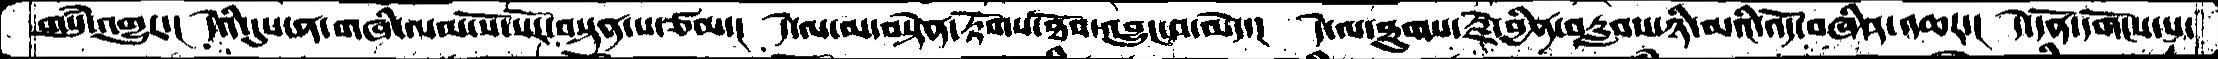གསུཾ་འགྱུར་།  དེའི་དུས་ན་གཞི་ལམ་སོ་སོར་བསྟན་པ་་ཙམ་།  དེ་ལ་མ་བསྟེན་རྟོགས་ཐོབ་འབྱུང་བ་མེད་།  དེ་ལ་ཐུགས་རྗེ་བྱིན་བརླབས་ཉི་མའི་འོད་བཞིན་འཆར་།  དེ་དོན་དགོངས་པ་
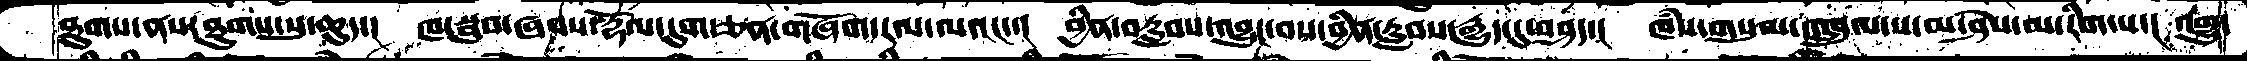ཐུགས་ནས་ཐུགས་སུ་ཆུད་།  ཁ་སྦུབ་ཞབས་རྡོལ་དུག་ཅན་གཞོག་རལ་ལའང་་།  བྱིན་བརླབས་འབྱུང་བས་བྱིན་རླབས་རྒྱུད་དུ་བཤད་།  ཁཾས་གསུམ་འཁྲུལ་པ་མ་ཤེས་མ་རིག་པ་།  འགྱུ་
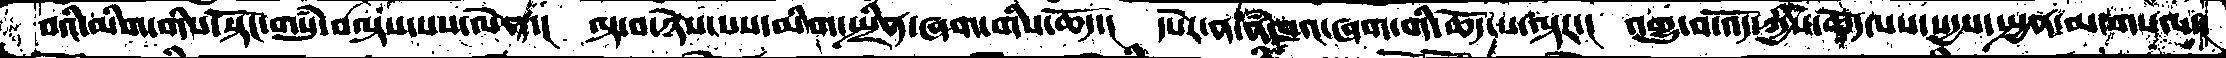བའི་མིག་གིས་སྟོང་གསུཾ་བལྟས་པས་ལེན་།  ལྟ་བ་ཉེས་པས་མིག་སྤྲིན་ཞག་གིས་ཆོད་།  དཔེར་ན་ནཾཁའ་ཞག་གི་ཆོད་པ་ལྟར་།  འགྱུ་བ་འོད་ཀྱིས་ཆོད་ལས་སདྱས་སྤྱན་མ་གསལ་།
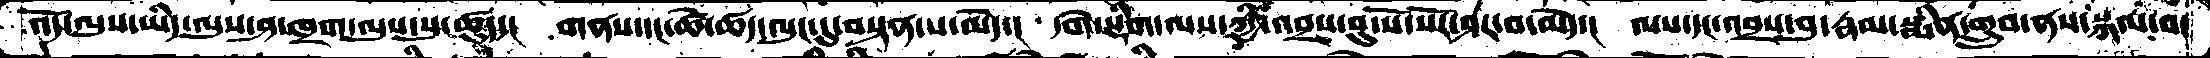འོད་ལུས་ཡིད་ལུས་ཤ་ཁྲག་ལུས་སུ་ཚུད་།   གནས་དང་ཚེ་ཚད་ལུང་དུ་བསྟན་པ་མེད་།   དགེ་སྡིག་ལས་ཀྱི་འབྲས་བུ་སོ་སོར་ཤར་བ་མེད་།  ལས་དང་འབྲས་བུ་རྣམ་སྨིན་གྲུབ་ནས་སྐལ་བ་
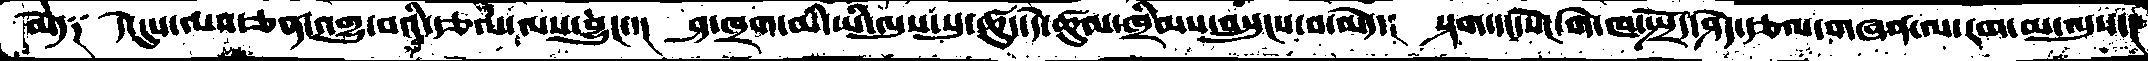མེད༑ དེ་དུས་ལབ་ཅན་འགྱུ་བའི་རྩལ་ལས་བྱུང་་།  ཤ་ཁྲག་མི་ཡི་ལུས་སུ་ཚུད་དེ་ཚུལ་ཁྲིམས་བསྲུངས་བ་མེད་།  སྟག་དང་སེང་གེ་ཁ་སྤྲོད་ཤེད་རྩལ་གཞན་ལ་རག་མ་ལུས་།
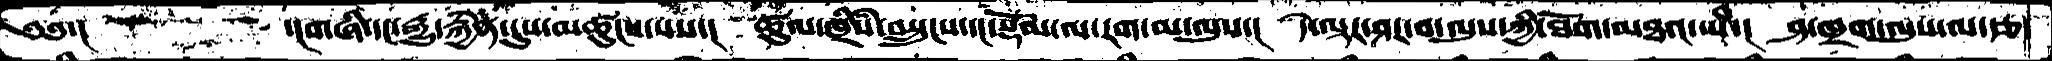༄༅་།       ་།གཞི་དང་རྒྱུ་རྐྱེན་དུས་མཚུངས་པས་།   ཚུལ་ཁྲིཾས་བསྲུངས་དང་སྡོམ་ལ་རག་མ་ལུས་།   དེ་ལྟར་ཤར་བ་ལུས་ཀྱི་ཐོག་མཐའ་ཡི་།   ཤ་ཁྲག་ལུས་ལ་རྩ་
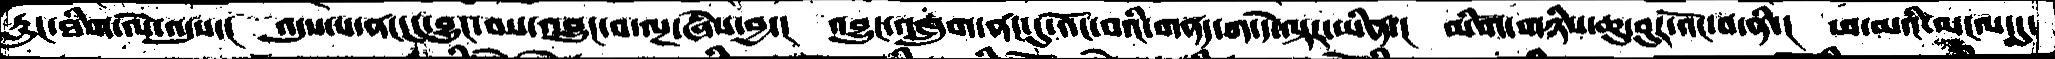རླུང་ཐིག་ལེ་འདུས་།   འདུས་པ་ནང་དུ་བྱུང་བས་འབྱུང་བ་ལྔ་ཞེས་བྱ་།   འབྱུང་འཁྲུག་ནང་དུ་འོང་བའི་གནད་ཀ་དེ་ལྟར་ཡིན་།  མིག་གཉིས་ཆུ་བུར་འོང་བ་ནི་།   ཕ་མའི་མངལ་དུ་
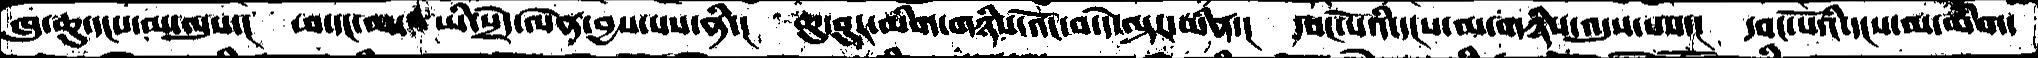ཁུ་ཆུ་དངས་མ་ལུས་།   ཕ་དང་མ་ཡི་སྲེད་ལེན་བྱས་པས་ནི་།  ཆུ་བུར་མིག་གཉིས་འོང་བ་དེ་ལྟར་མིན་།  དབང་པོའི་དངས་མ་གཉིས་འདུས་པས་།  དབང་པོའི་དངས་མ་མིག་
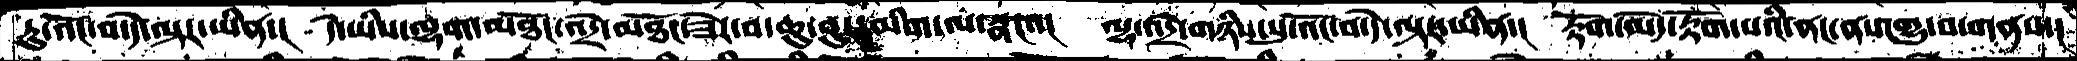ཏུ་འོང་བ་དེ་ལྟར་ཡིན་།  དེ་ཡིས་ལྷག་མཐོང་འདྲེ་མཐོང་ཟེར་བ་ཆུ་བུར་མིག་ལ་སྣང་་།  ལྷ་འདྲེ་གཉིས་སུ་འོང་བ་དེ་ལྟར་ཡིན་།  རྟོག་མེད་རྟོག་པའི་ནང་ནས་གྱུ་བ་གནས་།
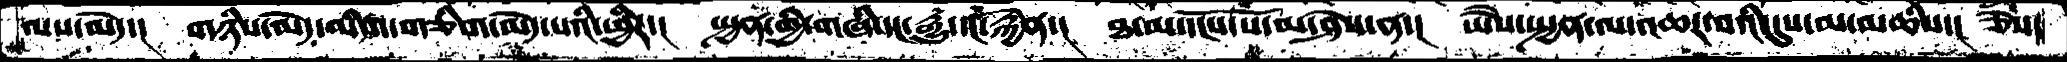ལས་མེད་།   གཉིས་མེད་མིག་གཅིག་མེད་པའི་ཕྱིར་།  སྤྱན་གྱི་གཞི་དང་རྒྱུ་དང་རྐྱེན་།  ཐ་མ་དངོས་པོ་མ་ཤེས་ན་།  ཡཻས་སྤྱན་ལ་འཆར་བའི་དུས་མ་མཆིས་།  ཅེས་
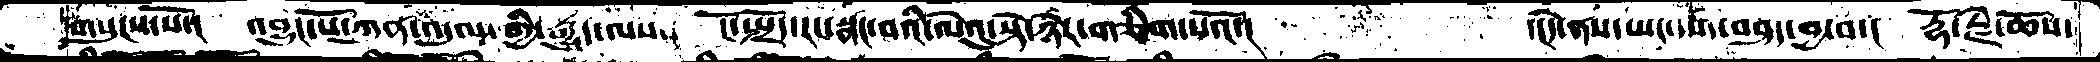གསུངས་སོ་།   འབྱུང་པོ་ཀུན་འདུལ་གྱི་རྒྱུད་ལས་།   ངོ་སྤྲོད་རང་སྣང་བའི་ལེའུ་སྟེ་ཉེར་གཅིག་པའོ་།      ་།དེ་ནས་ཡང་དག་བཤད་བྱ་བ་།  རྡོ་རྗེ་ཆོས་
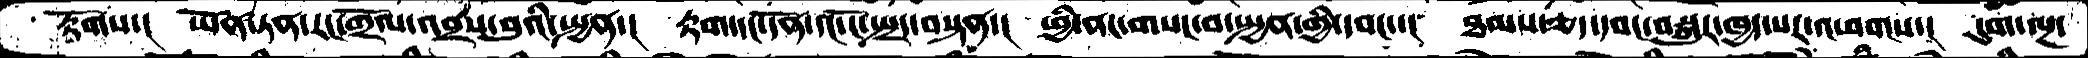རྟོགས་།    ཡོན་ཏན་རང་གྲོལ་འབྲས་བུའི་སྤྱན་།  རྟག་དང་དོན་དང་ངོ་སྤྲད་བསྟན་།   ཕྱི་ནང་གསང་བ་སྤྱན་གྱི་དབང་་།   ཐམས་ཅད་དབང་བསྐུར་ཁྱད་པར་འཕགས་།  དུག་ལྔ་
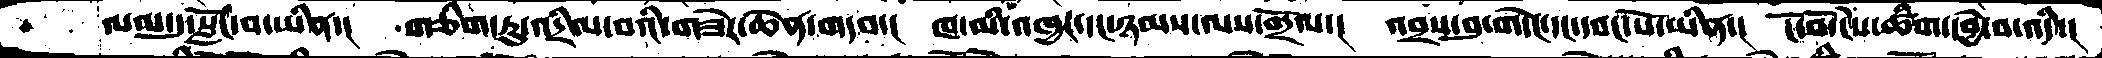ལམ་དུ་སློང་བ་ཡིན་།    གཅིག་ཏུ་འདྲིལ་བའི་གཟེར་ཆེན་གདབ་།  ཁ་མི་འཁྱར་དང་ཉམས་ལས་གྲོལ་།   འབྲས་བུ་གདེང་དང་དབང་པོ་ཡིན་།  ངོ་བོ་ངེས་ཚིག་དབྱེ་བ་འདི་།
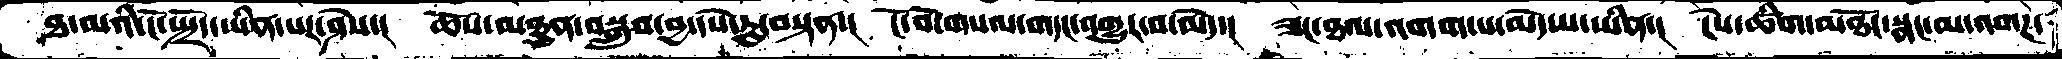ཐ་མའི་ངོ་སྤྲོད་ཡིན་པར་ཤེས་།  ཆོས་མཐུན་བསྒྲུབ་བྱ་དཔེ་རུ་བསྟན་།   ངོ་བོ་གསལ་གདང་འགྱུར་བ་མེད་།   ཟང་ཐལ་འགག་པ་མེད་པ་ཡིན་།  ངེས་ཚིག་མཐོང་སྣང་མ་འགཌ་
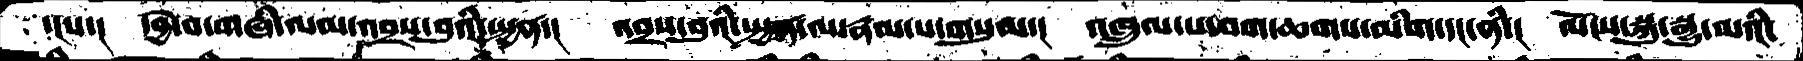དངས་།   དབྱེ་བ་གཞི་ལམ་འབྲས་བུའི་སྤྱན་།   འབྲས་བུའི་སྤྱན་ལ་རྣམ་པ་གསུམ་།   འཁྲུལ་པ་བག་ཆགས་མིག་དང་ནི་།   ལོངས་སྐུ་སྒྱུ་མའི་
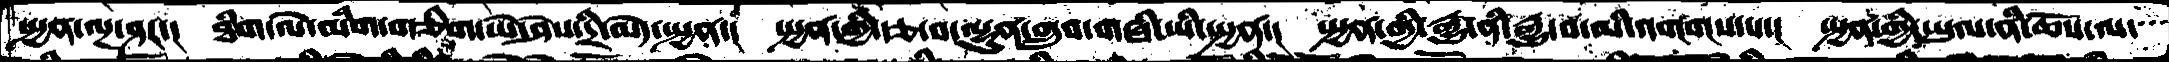སྤྱན་ལྔ་ཤར་།  ཐིག་ལེ་མིག་གཅིག་ཡེ་ཤེས་དྲི་མེད་སྤྱན་།  སྤྱན་གྱི་རྩ་བ་ལྷུན་གྲུབ་གཞི་ཡི་སྤྱན་།  སྤྱན་གྱི་རྒྱུ་ནི་རྒྱུ་བ་མི་འགགས་པ་།  སྤྱན་གྱི་ཡུལ་ནི་ཆོས་ལ་
